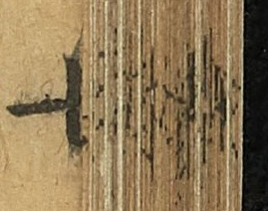七
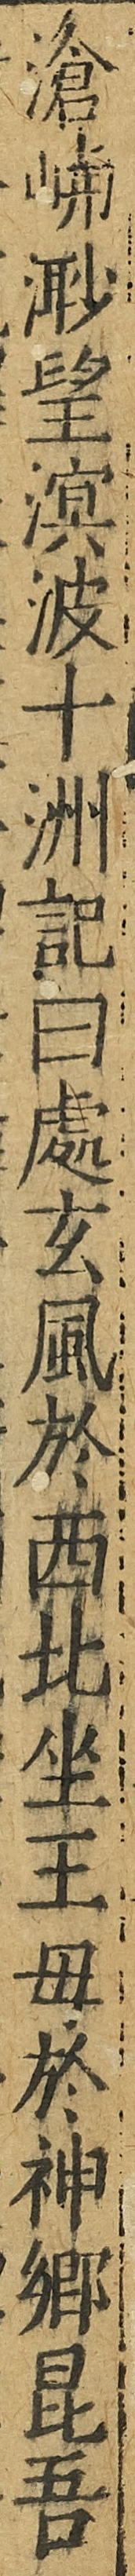滄嶼渺望溟波十洲記曰處玄風於西北坐王母於神鄉昆吾
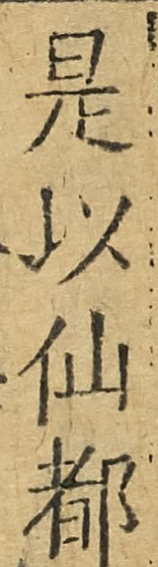是以仙都
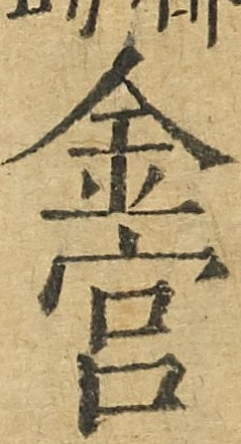金宮
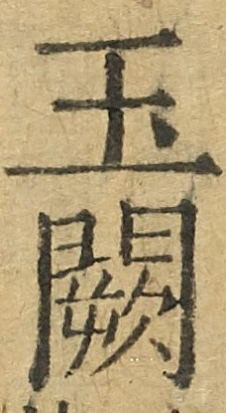玉闕
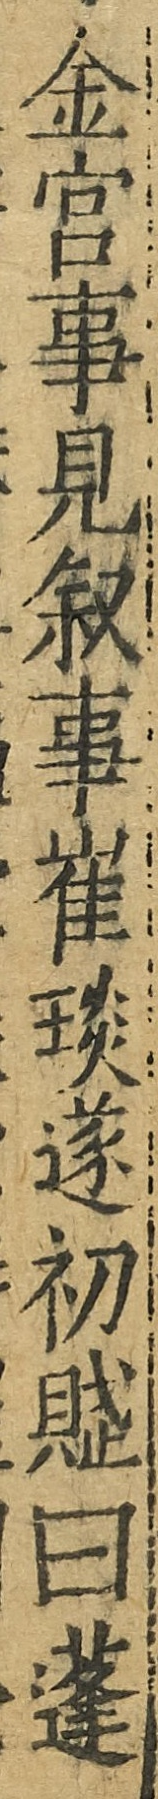金宮事見敘事崔琰遂初賦曰蓬
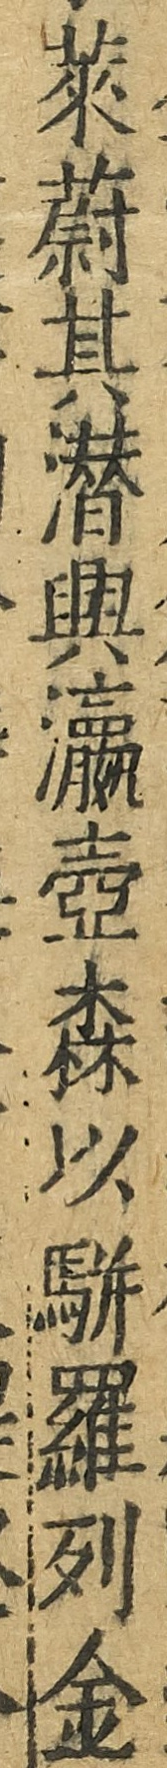萊蔚其潛興瀛壺森以駢羅列金
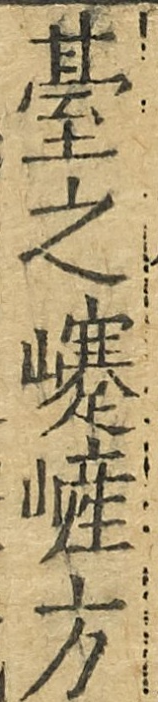臺之𡾰嵼方
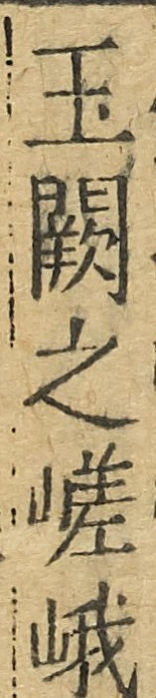玉闕之嵯峨
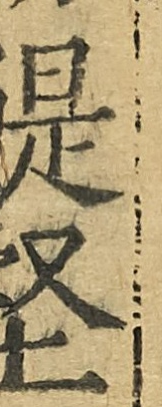鯷壑
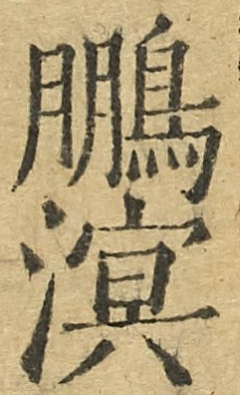鵬溟
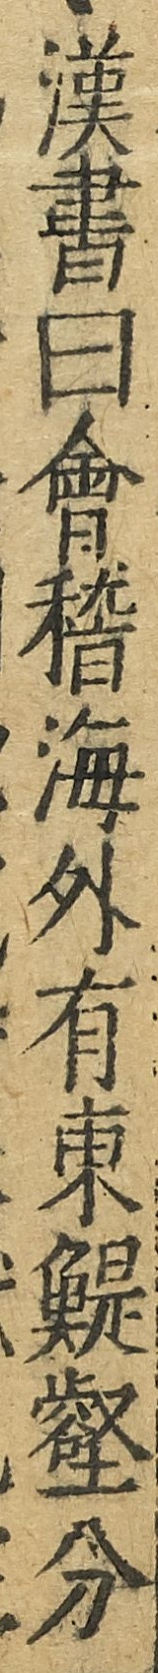漢書曰會稽海外有東鯷壑分
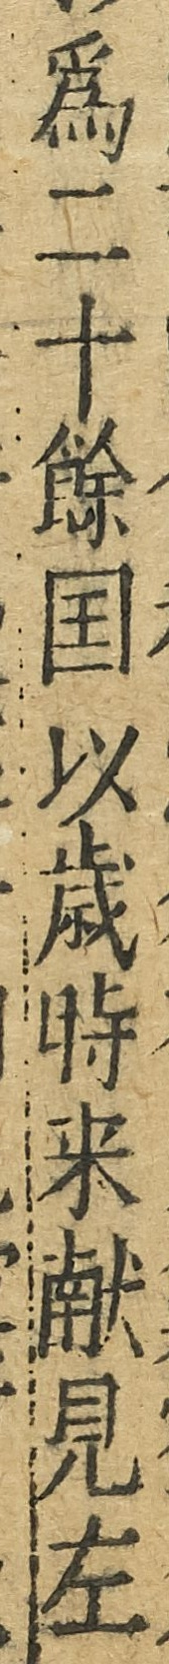為二十餘國以歲時來獻見左
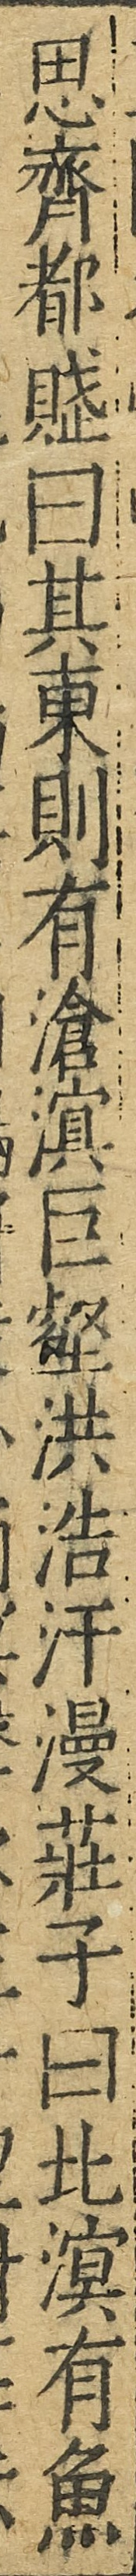思齊都賦曰其東則有滄溟巨壑洪浩汗漫莊子曰北溟有魚
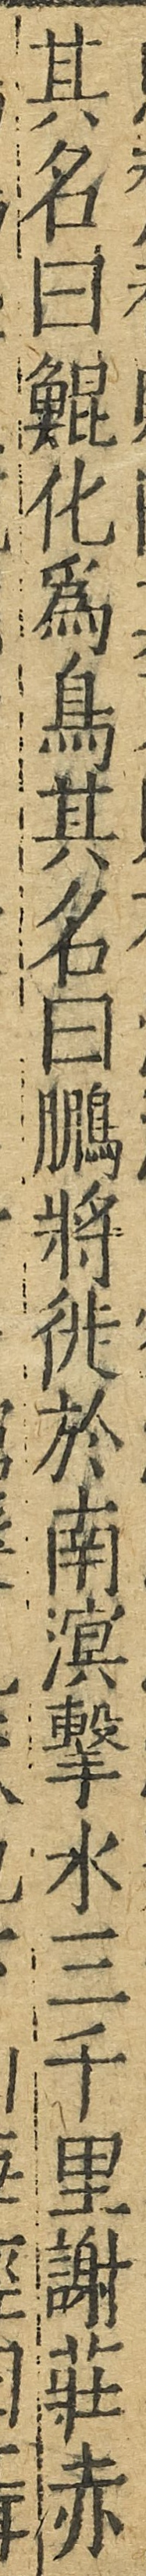其名曰鯤化為鳥其名曰鵬將徙於南溟擊水三千里謝莊赤
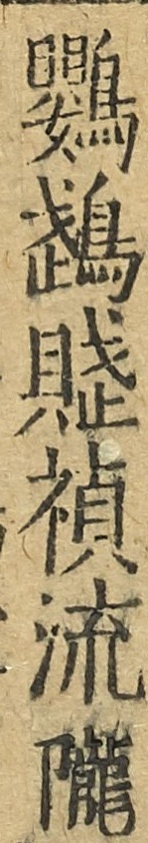鸚鵡賦禎流隴
